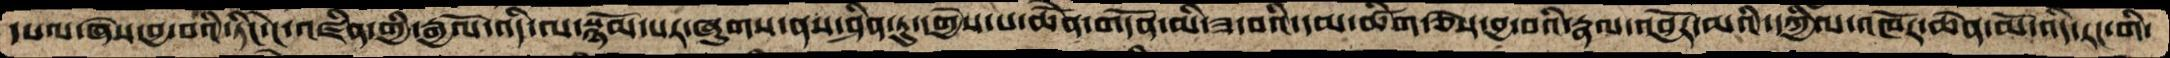དཔལ་ཞེས་བྱ་བའི་ཏིང་ངེ་འཛིན་གྱི་རྒྱལོ་འདི་ལ་སྙོམ་པར་ཞུགས་ནས་ཤིན་ཏུ་དགྱེས་པ་ཆེནོ་གདོན་མི་ཟ་བའི་དམ་ཚིག་ཅེས་བྱ་བའི་རྣལ་འབྱོར་མའི་དཀྱིལ་འཁོར་ཆེན་མོ་འདི་རང་གི་
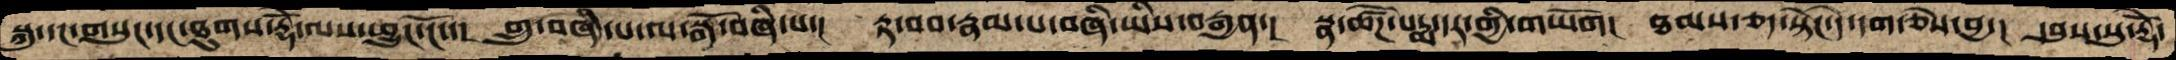སྐུ་དང་གསུང་དང་ཐུགས་རྡོེ་ལས་ཕྱུང་ངོ་་།  གྲུ་བཞི་པ་ལ་སྒོ་བཞི་པ་།  རྟ་བབ་རྣམ་པ་བཞི་ཡིས་བརྒྱན་།    སྣ་ཚོགས་པདྨ་དར་གྱི་གཡོག།  ཐམས་ཅད་སྟེང་དེ་དག་ཅེས་བྱ་།  དབུས་སུ་རྡོེ་
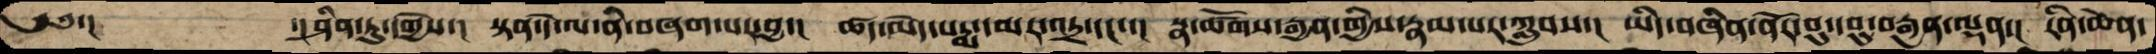༄༅་།        ་།ཤིན་ཏུ་དགྱེས་།   སྟན་དེ་ལ་ནི་བཞག་པར་བྱ་།  ཚད་མེད་པདྨ་དམར་འདྲ་དང་་།  སྣ་ཚོགས་རྒྱན་གྱིས་རྣམ་པར་ཀླུབས་།  ཡིད་བཞིན་ནོར་བུ་དབུ་བརྒྱན་ལྡན་།  རིན་ཆེན་
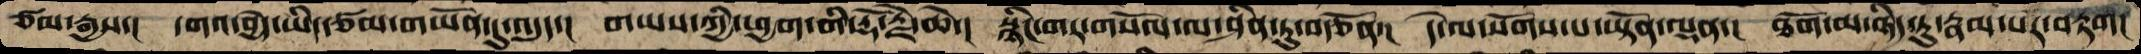ཙམ་རྒྱས་།  དགའ་བྱེད་ཡིད་ཙམ་གཡོན་དུ་འདུད་།  གཡས་ཀྱི་ཕྱག་གི་རྡོ་རྗེ་ཆེ་།  སྙིང་གར་གསོལ་ལ་ཤིན་ཏུ་བརྩོན་།  དེ་ལ་སོགས་པ་ཡྟོན་ལྡན་།  ཐོག་མ་ཉིད་དུ་རྣམ་པར་བརྟག།
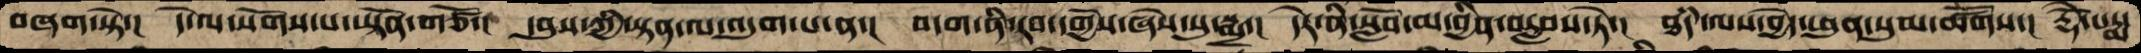བཞག་སྟེ་།  དེ་ལ་སོགས་པ་ཡྟོན་གཙོ་།  དབུས་ཀྱི་སྟན་ལ་འདུག་པ་ན་།  བདག་ནི་རབ་དགྱེས་ཞེས་སུ་སྨྲ་།  དེར་ནི་སློབ་མ་བྱིན་བརླབས་ཏེ་།  ཐཾད་ལས་བྱེད་ཕུན་སུམ་ཚོགས་།  རྡོེ་པདྨ་
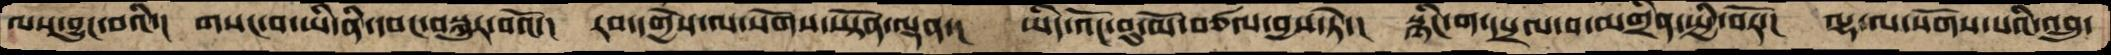ལས་བྱུང་བའི་།  གསང་བ་ཡི་ནི་དབང་བསྐུར་བའོ་།  རབ་དགྱེས་ལ་སོགས་ཡྟོན་ལྡན་།  ཡིད་འོང་བུ་མོ་བཙལ་བྱས་ཏེ་།  སྙིང་ག་དཔྲལ་བ་མགྲིན་སྤྱི་བོར་།  ལྷ་ལ་སོགས་པའི་འབྲུ་
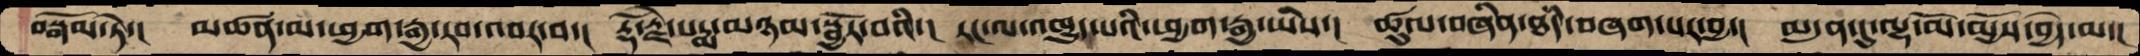བསྒོམ་ཏེ་།  མཚན་མ་ཕྱག་རྒྱ་རབ་འབར་བ་།  རྡོོ་རྗེ་པདྨ་མཉམ་སྦྱོར་བའི་།  རང་ལ་འཁྱུད་པའི་ཕྱག་རྒྱ་ཡིས་།  ཚུལ་བཞིན་ཐམས་ཅད་བཞག་པར་བྱ་།  མདུན་དུ་ལྷ་མོ་མྱོས་བྱེད་མ་།
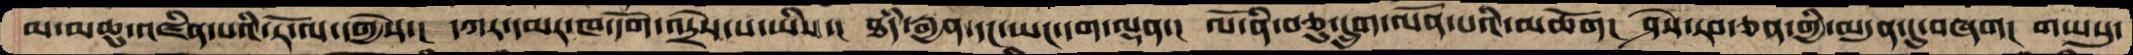མ་མཆུ་འཛིན་པའི་རོ་ལ་དགྱེས་།  དཀར་དམར་ཁ་དོག་འདྲེས་པ་ཡིས་།  ཐཾད་རྒྱན་དང་ཡང་དག་ལྡན་།  ལོ་ནི་བཅུ་དྲུག་ལོན་པའི་མཆོག།  ཤེས་རབ་ཅན་གྱི་མདུན་དུ་བཞག།  གཡསུ་
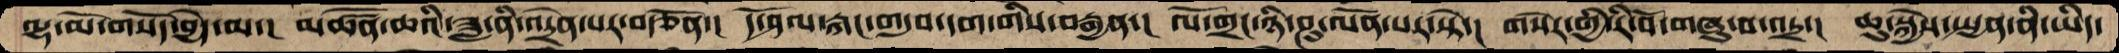ལྷ་མོ་གསོད་བྱེད་མ་།   མཚོན་ཆའི་ཟླ་ནི་འདྲེན་པར་བརྩོན་།  དོ་ཤལ་རྐང་གདུབ་དག་གིས་བརྒྱན་།  ལོ་གྲང་ཉི་ཤུ་ལོན་པར་སྟེ་།  གསེར་གྱི་རི་བོ་གཞུ་བ་འདྲ་།  ཆུ་སྐྱེས་སྤྱན་ནི་ཡིད་
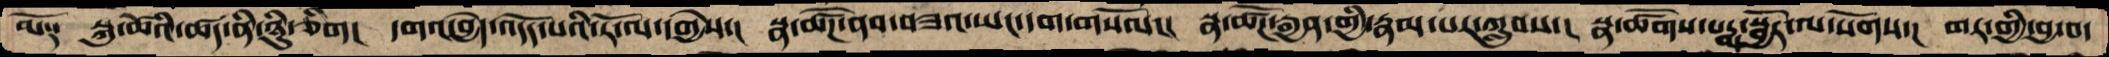ལོ༑   སྐུ་ཚེའི་ཚད་ནི་ཉིུ་ཅིག།  དགའ་བྱེད་འདོད་པའི་རོ་ལ་དགྱེས་།  སྣ་ཚོཌ་ནབ་བཟའ་ཡང་དག་གསོལ་།  སྣ་ཚོཌ་རྒྱན་གྱི་རྣམ་པར་ཀླུབས་།  སྣ་ཚོགས་པདྨ་སྦྱོར་ལ་སོགས་།  གར་གྱི་བྱ་བ་
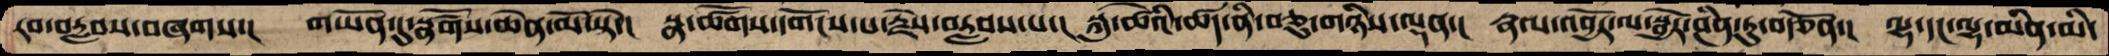རབ་བརླབས་བཞགས་།  གཡོན་དུ་སྣཚོགས་ཆེན་མོ་སྟེ་།   སྣ་ཚོགས་དགོངས་པ་རྗེས་བརླབས་པ་།  སྐུ་ཚེའི་ཚད་ནི་བཅུ་གཉིས་ལྡན་།  རྣལ་འབྱོར་ལ་སྦྱོར་ཤིན་ཏུ་བརྩོན་།  ལྷ་དང་ལྷ་མིན་མི་
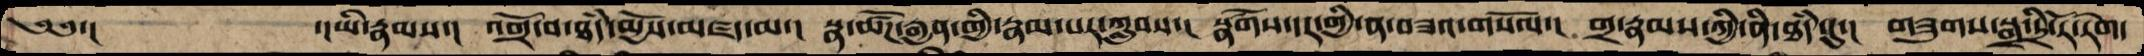༄༅་།        ་།ཡི་རྣམས་།  འགྲོ་བ་ཐཾད་མྱོས་མཛད་མ་།  སྣ་ཚོཌ་རྒྱན་གྱི་རྣམ་པར་ཀླུབས་།  སྣཚོཌ་དར་གྱི་ན་བཟའ་གསོལ་།  གྲ་རྣམས་ཀྱི་ནི་ཐཾད་དུ་།  གཟུགས་སྒྲ་དྲི་རོ་རེག་
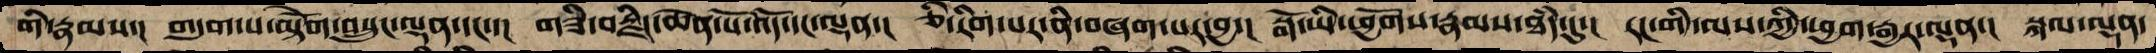གི་རྣམས་།  གདུག་པ་མྟེོག་བསྲུང་ལྡན་དང་་།  གཟི་བརྗིད་ཆེན་པོ་འོད་དང་ལྡན་།   ཅི་རིག་པར་ནི་བཞག་པར་བྱ་།  སྒོ་ཡི་ཕྱོགས་རྣམས་ཐཾད་དུ་།  རང་གི་ལས་ཀྱི་ཕྱག་རྒྱར་ལྡན་།  སྐལ་ལྡན་
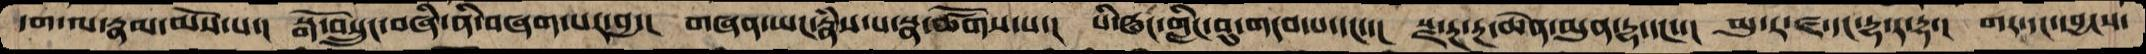དག་ལ་རྣམ་མོས་པ་།  སྒོ་བསྲུང་བཞི་ནི་བཞག་པར་བྱ་།  གཞན་ཡང་རྣཾས་པ་སྣ་ཚོགས་པ་།  པི་ཝང་གླིང་བུ་གདབ་པ་དང་་། སྫ་རྔ་རྔ་ཆེན་མུན་དྷ་དང་་།  མུ་ར་ཛ་དང་དྷ་ར་དྷ་།  གར་དང་དབྱངས་
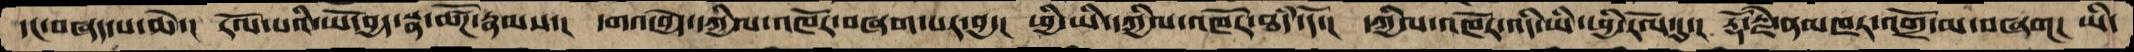དང་བཞད་པ་ཆེ་།  རོལ་པའི་ཡོ་བྱད་སྣ་ཆོཌ་རྣམས་།  དགའ་བྱེད་དཀྱིལ་འཁོར་བཞག་པར་བྱ་།  ཕྱི་ཡི་དཀྱིལ་འཁོར་ཐཾད་དོ་།  དཀྱིལ་འཁོར་འདི་ཡི་ཕྱི་རོལ་དུ་།  རྡོ་རྗེ་ནམཁར་འགྲོ་མ་བཞག།  ཡི་
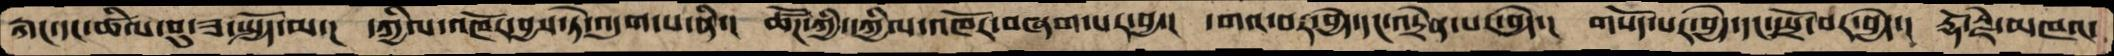རྐང་དང་ཚིལ་བུ་ཟ་སྤྱོད་མ་།  དཀྱིལ་འཁོར་བྱས་ཏེ་འདུག་པ་ནི་།  ཚོཌ་ཀྱི་དཀྱིལ་འཁོར་བཞག་པར་བྱ་།  དགའ་བར་བྱེད་དང་འདྲེན་པར་བྱེད་།  གསོད་པར་བྱེད་དང་སྤྲོ་བར་བྱེད་།  རྡོ་རྗེ་མཁའ་
